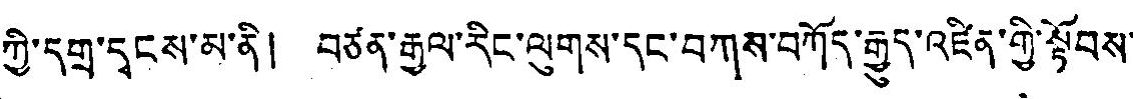ཀྱི་དགྲ་དྭངས་མ་ནི། བཙན་རྒྱལ་རིང་ལུགས་དང་བཀས་བཀོད་རྒྱུད་འཛིན་གྱི་སྟོབས་
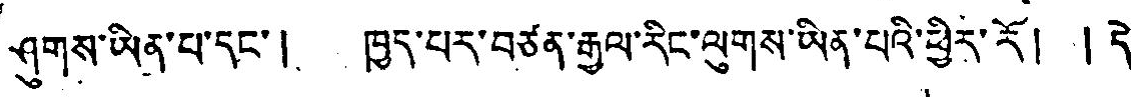ཤུགས་ཡིན་པ་དང་། ཁྱད་པར་བཙན་རྒྱལ་རིང་ལུགས་ཡིན་པའི་ཕྱིར་རོ། ། དེ་
